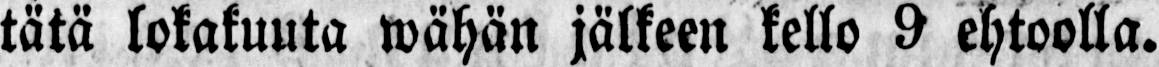tätä lokakuuta wähän jälkeen kello 9 ehtoolla.
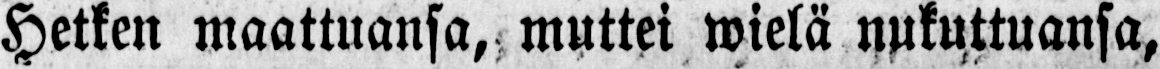Hetken maattuansa, muttei wielä nukuttuansa,
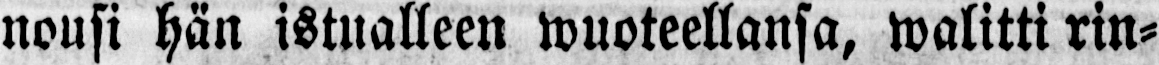nousi hän istualleen wuoteellansa, walitti rin-
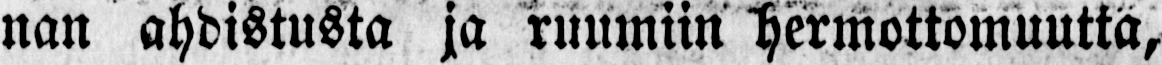nan ahdistusta ja ruumiin hermottomuutta,
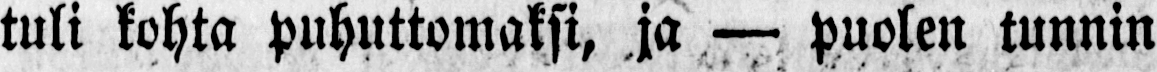tuli kohta puhuttomaksi, ja — puolen tunnin
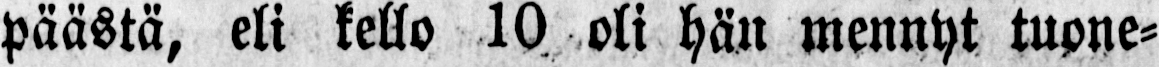päästä, eli kello 10 oli hän mennyt tuone-
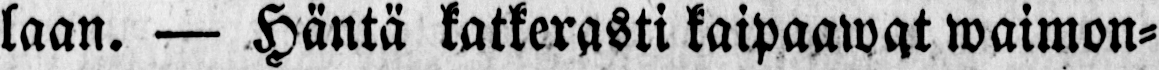laan. — Häntä katkerasti kaipaawat waimon-
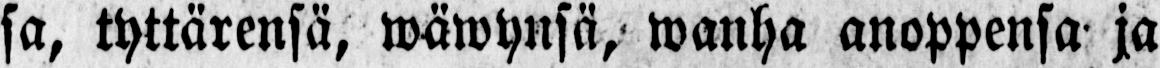sa, tyttärensä, wäwynsä, wanha anoppensa ja
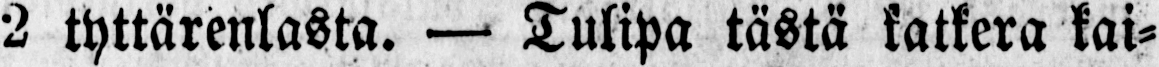2 tyttärenlasta. - Tulipa tästä katkera kai-
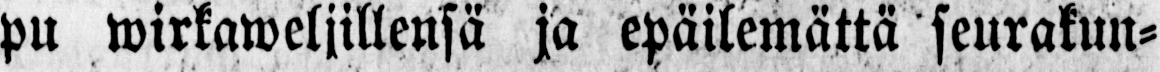pu wirkaweljillensä ja epäilemättä seurakun-
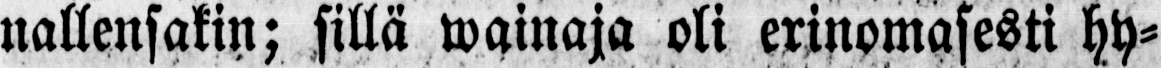nallensakin; sillä wainaja oli erinomasesti hy-
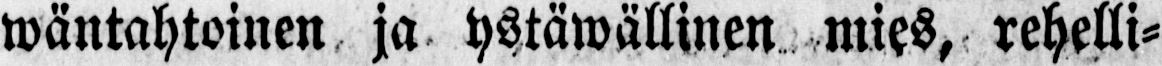wäntahtoinen ja ystäwällinen mies, rehelli-
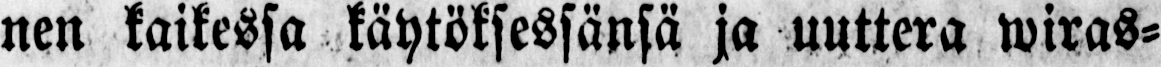nen kaikessa käytöksessänsä ja uuttera wiras-
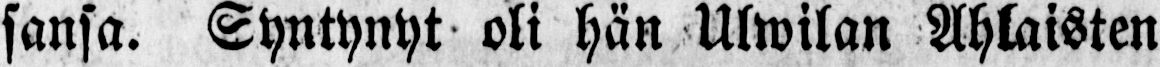sansa. Syntynyt oli hän Ulwilan Ahlaisten
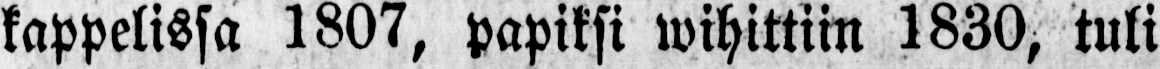kappelissa 1807, papiksi wihittiin 1830, tuli
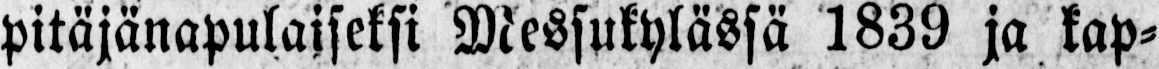pitäjänapulaiseksi Messukylässä 1839 ja kap-
